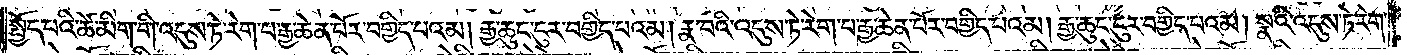སྤྱོད་པའི་ཚེ་མིག་གི་འདུས་ཏེ་རེག་པ་རྒྱ་ཆེན་པོར་བགྱིད་པའམ། རྒྱ་ཆུང་ངུར་བགྱིད་པའམ། རྣ་བའི་འདུས་ཏེ་རེག་པ་རྒྱ་ཆེན་པོར་བགྱིད་པའམ། རྒྱ་ཆུང་ངུར་བགྱིད་པའམ། སྣའི་འདུས་ཏེ་རེག་
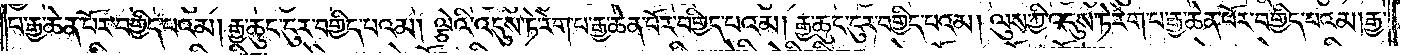པ་རྒྱ་ཆེན་པོར་བགྱིད་པའམ། རྒྱ་ཆུང་ངུར་བགྱིད་པའམ། ལྕེའི་འདུས་ཏེ་རེག་པ་རྒྱ་ཆེན་པོར་བགྱིད་པའམ། རྒྱ་ཆུང་ངུར་བགྱིད་པའམ། ལུས་ཀྱི་འདུས་ཏེ་རེག་པ་རྒྱ་ཆེན་པོར་བགྱིད་པའམ། རྒྱ་
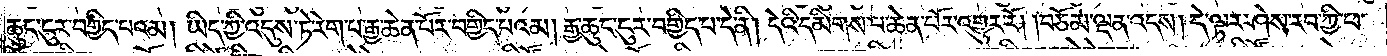ཆུང་ངུར་བགྱིད་པའམ། ཡིད་ཀྱི་འདུས་ཏེ་རེག་པ་རྒྱ་ཆེན་པོར་བགྱིད་པའམ། རྒྱ་ཆུང་ངུར་བགྱིད་པ་དེ་ནི། དེའི་དམིགས་པ་ཆེན་པོར་འགྱུར་རོ། །བཅོམ་ལྡན་འདས། དེ་ལྟར་ཤེས་རབ་ཀྱི་ཕ་
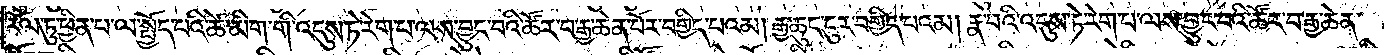རོལ་ཏུ་ཕྱིན་པ་ལ་སྤྱོད་པའི་ཚེ་མིག་གི་འདུས་ཏེ་རེག་པ་ལས་བྱུང་བའི་ཚོར་བ་རྒྱ་ཆེན་པོར་བགྱིད་པའམ། རྒྱ་ཆུང་ངུར་བགྱིད་པའམ། རྣ་བའི་འདུས་ཏེ་རེག་པ་ལས་བྱུང་བའི་ཚོར་བ་རྒྱ་ཆེན་
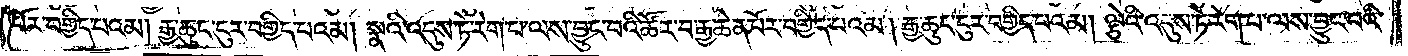པོར་བགྱིད་པའམ། རྒྱ་ཆུང་ངུར་བགྱིད་པའམ། སྣའི་འདུས་ཏེ་རེག་པ་ལས་བྱུང་བའི་ཚོར་བ་རྒྱ་ཆེན་པོར་བགྱིད་པའམ། རྒྱ་ཆུང་ངུར་བགྱིད་པའམ། ལྕེའི་འདུས་ཏེ་རེག་པ་ལས་བྱུང་བའི་
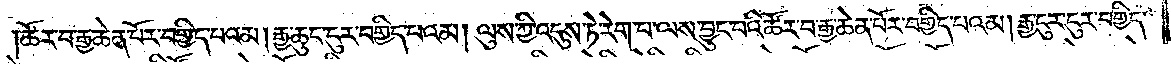ཚོར་བ་རྒྱ་ཆེན་པོར་བགྱིད་པའམ། རྒྱ་ཆུང་ངུར་བགྱིད་པའམ། ལུས་ཀྱི་འདུས་ཏེ་རེག་པ་ལས་བྱུང་བའི་ཚོར་བ་རྒྱ་ཆེན་པོར་བགྱིད་པའམ། རྒྱ་ངུར་ངུར་བགྱིད་
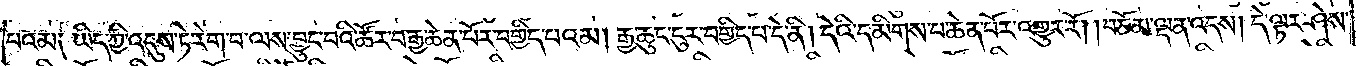པའམ༑ ཡིད་ཀྱི་འདུས་ཏེ་རེག་པ་ལས་བྱུང་བའི་ཚོར་བ་རྒྱ་ཆེན་པོར་བགྱིད་པའམ། རྒྱ་ཆུང་ངུར་བགྱིད་པ་དེ་ནི། དེའི་དམིགས་པ་ཆེན་པོར་འགྱུར་རོ། །བཅོམ་ལྡན་འདས། དེ་ལྟར་ཤེས་
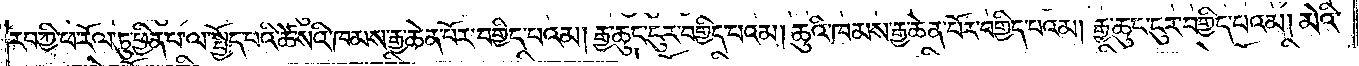རབ་ཀྱི་ཕ་རོལ་ཏུ་ཕྱིན་པ་ལ་སྤྱོད་པའི་ཚེ་སའི་ཁམས་རྒྱ་ཆེན་པོར་བགྱིད་པའམ། རྒྱ་ཆུང་ངུར་བགྱིད་པའམ། ཆུའི་ཁམས་རྒྱ་ཆེན་པོར་བགྱིད་པའམ། རྒྱ་ཆུང་ངུར་བགྱིད་པའམ། མེའི་
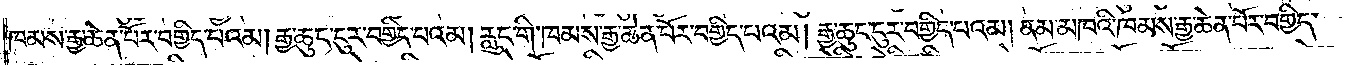ཁམས་རྒྱ་ཆེན་པོར་བགྱིད་པའམ། རྒྱ་ཆུང་ངུར་བགྱིད་པའམ། རླུང་གི་ཁམས་རྒྱ་ཆེན་པོར་བགྱིད་པའམ། རྒྱ་ཆུང་ངུར་བགྱིད་པའམ། ནམ་མཁའི་ཁམས་རྒྱ་ཆེན་པོར་བགྱིད་
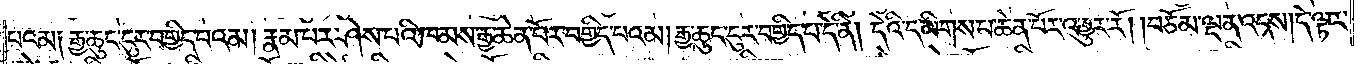པའམ༑ རྒྱ་ཆུང་ངུར་བགྱིད་པའམ། རྣམ་པར་ཤེས་པའི་ཁམས་རྒྱ་ཆེན་པོར་བགྱིད་པའམ། རྒྱ་ཆུང་ངུར་བགྱིད་པ་དེ་ནི། དེའི་དམིགས་པ་ཆེན་པོར་འགྱུར་རོ། །བཅོམ་ལྡན་འདས། དེ་ལྟར་
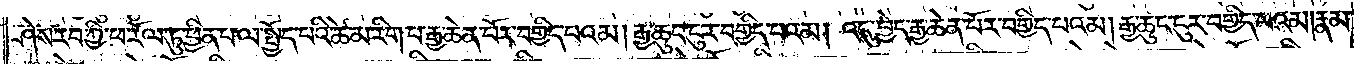ཤེས་རབ་ཀྱི་ཕ་རོལ་ཏུ་ཕྱིན་པ་ལ་སྤྱོད་པའི་ཚེ་མ་རིག་པ་རྒྱ་ཆེན་པོར་བགྱིད་པའམ། རྒྱ་ཆུང་ངུར་བགྱིད་པའམ། འདུ་བྱེད་རྒྱ་ཆེན་པོར་བགྱིད་པའམ། རྒྱ་ཆུང་ངུར་བགྱིད་པའམ། རྣམ་
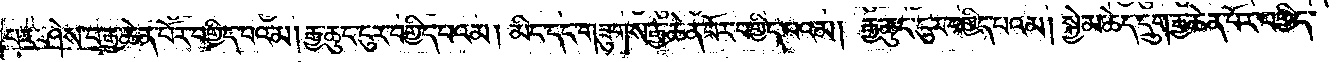པར་ཤེས་པ་རྒྱ་ཆེན་པོར་བགྱིད་པའམ། རྒྱ་ཆུང་ངུར་བགྱིད་པའམ། མིང་དང་གཟུགས་རྒྱ་ཆེན་པོར་བགྱིད་པའམ། རྒྱ་ཆུང་ངུར་བགྱིད་པའམ། སྐྱེ་མཆེད་དྲུག་རྒྱ་ཆེན་པོར་བགྱིད་
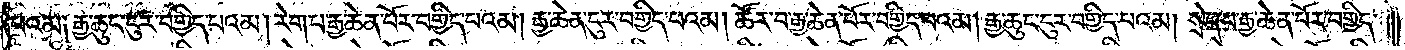པའམ༑ རྒྱ་ཆུང་ངུར་བགྱིད་པའམ། རེག་པ་རྒྱ་ཆེན་པོར་བགྱིད་པའམ། རྒྱ་ཆེན་ངུར་བགྱིད་པའམ། ཚོར་བ་རྒྱ་ཆེན་པོར་བགྱིད་པའམ། རྒྱ་ཆུང་ངུར་བགྱིད་པའམ། སྲེད་པ་རྒྱ་ཆེན་པོར་བགྱིད་
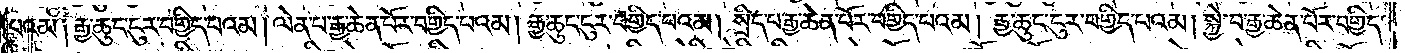པའམ༑ རྒྱ་ཆུང་ངུར་བགྱིད་པའམ། ལེན་པ་རྒྱ་ཆེན་པོར་བགྱིད་པའམ། རྒྱ་ཆུང་ངུར་བགྱིད་པའམ། སྲིད་པ་རྒྱ་ཆེན་པོར་བགྱིད་པའམ། རྒྱ་ཆུང་ངུར་བགྱིད་པའམ། སྐྱེ་བ་རྒྱ་ཆེན་པོར་བགྱིད་
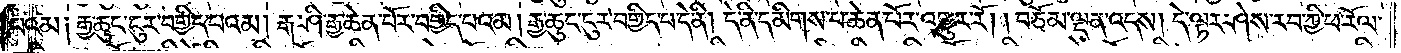པའམ༑ རྒྱ་ཆུང་ངུར་བགྱིད་པའམ། རྒ་ཤི་རྒྱ་ཆེན་པོར་བགྱིད་པའམ། རྒྱ་ཆུང་ངུར་བགྱིད་པ་དེ་ནི། དེ་ནི་དམིགས་པ་ཆེན་པོར་འགྱུར་རོ། །བཅོམ་ལྡན་འདས། དེ་ལྟར་ཤེས་རབ་ཀྱི་ཕ་རོལ་
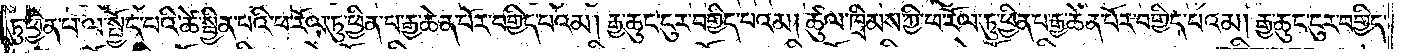ཏུ་ཕྱིན་པ་ལ་སྤྱོད་པའི་ཚེ་སྦྱིན་པའི་ཕ་རོལ་ཏུ་ཕྱིན་པ་རྒྱ་ཆེན་པོར་བགྱིད་པའམ། རྒྱ་ཆུང་ངུར་བགྱིད་པའམ། ཚུལ་ཁྲིམས་ཀྱི་ཕ་རོལ་ཏུ་ཕྱིན་པ་རྒྱ་ཆེན་པོར་བགྱིད་པའམ། རྒྱ་ཆུང་ངུར་བགྱིད་
